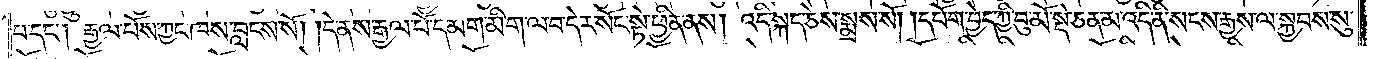པ་དང༌། རྒྱལ་པོས་ཀྱང་ཁས་བླངས་སོ། །དེ་ནས་རྒྱལ་པོ་དམག་མི་ག་ལ་བ་དེར་སོང་སྟེ་ཕྱིན་ནས། འདི་སྐད་ཅེས་སྨྲས་སོ། །དཔོག་བྱེད་ཀྱི་བུ་མོ་སྡེ་ཅན་མ་འདི་ནི་སངས་རྒྱས་ལ་སྐྱབས་སུ་
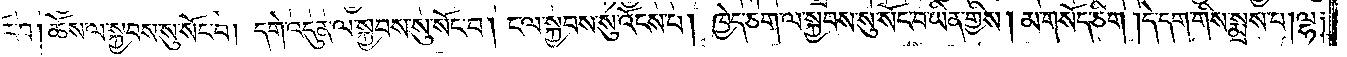སོང་བ། ཆོས་ལ་སྐྱབས་སུ་སོང་བ། དགེ་འདུན་ལ་སྐྱབས་སུ་སོང་བ། ང་ལ་སྐྱབས་སུ་འོངས་པ། ཁྱེད་ཅག་ལ་སྐྱབས་སུ་སོང་བ་ཡིན་གྱིས། མ་གསོད་ཅིག །དེ་དག་གིས་སྨྲས་པ། ལྷ༑
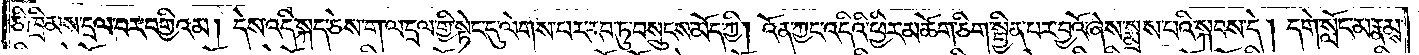ཅི་ཁྲིམས་དྲལ་བར་བགྱིའམ། དེས་འདི་སྐད་ཅེས་ག་ལ་དྲལ་གྱི་སྟེང་དུ་ལེགས་པར་རབ་ཏུ་བསྲུངས་མོད་ཀྱི། འོན་ཀྱང་འདིའི་ཕྱིར་མཆོག་ཅིག་སྦྱིན་པར་བྱའོ་ཞེས་སྨྲས་པའི་སྐབས་དེ། དགེ་སློང་མ་རྣམས་
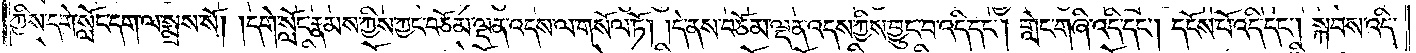ཀྱིས་དགེ་སློང་དག་ལ་སྨྲས་སོ། །དགེ་སློང་རྣམས་ཀྱིས་ཀྱང་བཅོམ་ལྡན་འདས་ལ་གསོལ་ཏོ། །དེ་ནས་བཅོམ་ལྡན་འདས་ཀྱིས་བྱུང་བ་འདི་དང༌། གླེང་གཞི་འདི་དང༌། དངོས་པོ་འདི་དང༌། སྐབས་འདི་
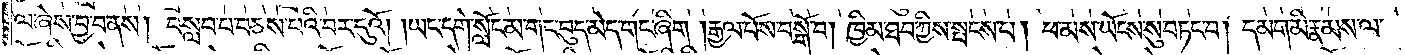ལ་ཞེས་བྱ་བ་ནས། བསླབ་པ་བཅས་པའི་བར་དུའོ། །ཡང་དགེ་སློང་མ་གང་བུད་མེད་གང་ཞིག །རྒྱལ་པོས་བསྒོ་བ། ཁྱིམ་ཐབ་ཀྱིས་སྤངས་པ། ཕ་མས་ཡོངས་སུ་བཏང་བ། དམག་མི་རྣམས་ལ་
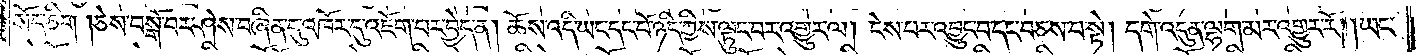སོད་ཅིག །ཅེས་བསྒོ་བར་ཤེས་བཞིན་དུ་འཁོར་དུ་འཇོག་པར་བྱེད་ན། ཆོས་འདི་ཡང་དང་པོ་ཉིད་ཀྱིས་ལྟུང་བར་འགྱུར་ལ། ངེས་པར་འབྱུང་བ་དང་བཅས་པ་སྟེ། དགེ་འདུན་ལྷག་མར་འགྱུར་རོ། །ཡང་
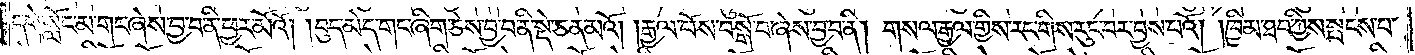དགེ་སློང་མ་གང་ཞེས་བྱ་བ་ནི་ཕྱར་མོའོ། །བུད་མེད་གང་ཞིག་ཅེས་བྱ་བ་ནི་སྡེ་ཅན་མའོ། །རྒྱལ་པོས་བསྒོ་བ་ཞེས་བྱ་བ་ནི། གསལ་རྒྱལ་གྱིས་རང་གིས་རུང་བར་བྱས་པའོ། །ཁྱིམ་ཐབ་ཀྱིས་སྤངས་པ་
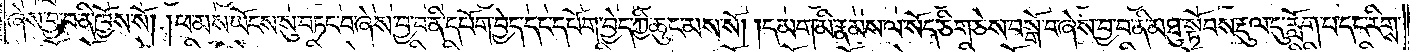ཞེས་བྱ་བ་ནི་ཁྱོས་སོ། །ཕ་མས་ཡོངས་སུ་བཏང་བ་ཞེས་བྱ་བ་ནི་དཔོག་བྱེད་དང་དཔོག་བྱེད་ཀྱི་ཆུང་མས་སོ། །དམག་མི་རྣམས་ལ་སོད་ཅིག་ཅེས་བསྒོ་བ་ཞེས་བྱ་བ་ནི་མཐུ་སྟོབས་རྡུལ་དུ་རློག་པ་དང་རིགས་
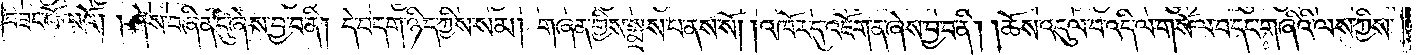བཟང་པོ་ལའོ། །ཤེས་བཞིན་དུ་ཞེས་བྱ་བ་ནི། དེ་བདག་ཉིད་ཀྱིས་སམ། གཞན་གྱིས་སྨྲས་པ་ནས་སོ། །འཁོར་དུ་འཇོག་ན་ཞེས་བྱ་བ་ནི། །ཆོས་འདུལ་བ་འདི་ལ་གསོལ་བ་དང་གཞིའི་ལས་ཀྱིས་
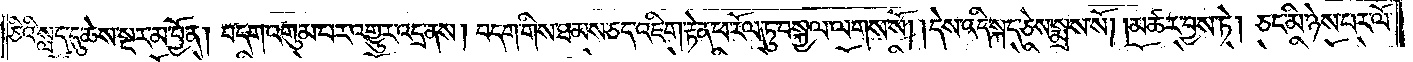ཅིའི་སླད་དུ་ཆེས་སྔར་མ་བྱོན། བདག་འགུམ་པར་འགྱུར་འདྲ་ནས། བདག་གིས་ཐམས་ཅད་འཇིག་རྟེན་ཕ་རོལ་ཏུ་བསྐྱལ་ལགས་སོ། །དེས་འདི་སྐད་ཅེས་སྨྲས་སོ། །མཚར་བྱས་ཏེ། ཅང་མི་ཉེས་པར་ལོ་
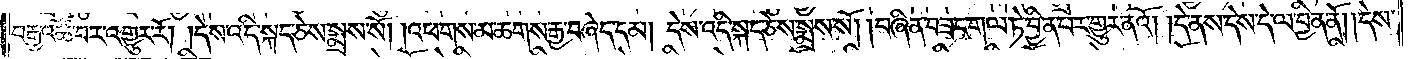བརྒྱ་འཚོ་བར་འགྱུར་རོ། །དེས་འདི་སྐད་ཅེས་སྨྲས་སོ། །འཕགས་མ་ཆགས་རྒྱ་བཞེད་དམ། དེས་འདི་སྐད་ཅེས་སྨྲས་སོ། །བཞིན་བཟང་གལ་ཏེ་བྱིན་པར་གྱུར་ནའོ། །དེ་ནས་དེས་དེ་ལ་བྱིན་ནོ། །དེས་
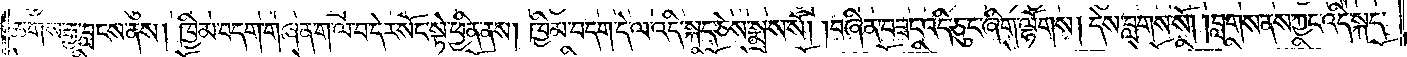ཆགས་རྒྱ་བླངས་ནས། ཁྱིམ་བདག་གཞན་ག་ལ་བ་དེར་སོང་སྟེ་ཕྱིན་ནས། ཁྱིམ་བདག་དེ་ལ་འདི་སྐད་ཅེས་སྨྲས་སོ། །བཞིན་བཟང་འདི་ཅུང་ཞིག་ལྷོགས། དེས་བླགས་སོ། །བླགས་ནས་ཀྱང་འདི་སྐད་
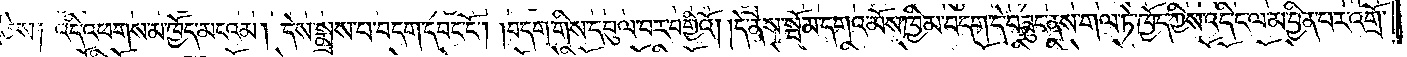ཅེས༑ འདི་འཕགས་མ་ཁྱོད་མངའམ། དེས་སྨྲས་པ་བདག་དབང་ངོ༌། །བདག་གིས་དབུལ་བར་བགྱིའོ། །དེ་ནས་སྦོམ་དགའ་མོས་ཁྱིམ་བདག་དེ་བཟུང་ནས་གལ་ཏེ་ཁྱོད་ཀྱིས་འདི་ང་ལ་མ་བྱིན་པར་འགྲོ་
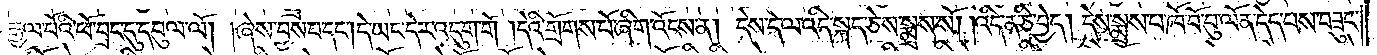ན༑ རྒྱལ་པོའི་ཕོ་བྲང་དུ་དབུལ་ལོ། །ཞེས་བྱས་པ་དང༌། དེ་ཡང་དེར་འདུག་གོ །དེའི་གྲོགས་པོ་ཞིག་འོངས་ན། དེས་དེ་ལ་འདི་སྐད་ཅེས་སྨྲས་སོ། །འདི་ན་ཅི་བྱེད། དེས་སྨྲས་པ་ཁོ་བོ་བུ་ལོན་དེད་པས་བཟུང་
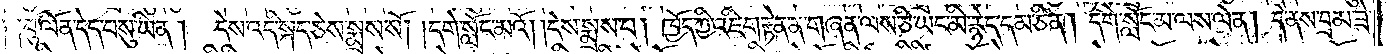ངོ༑ ༑བུ་ལོན་དེད་པ་སུ་ཡིན། དེས་འདི་སྐད་ཅེས་སྨྲས་སོ། །དགེ་སློང་མའོ། །དེས་སྨྲས་པ། ཁྱོད་ཀྱི་འཇིག་རྟེན་ན་གཞན་ལས་ཅི་ཡང་མི་རྙེད་དམ་ཅི་ན། དགེ་སློང་མ་ལས་ལེན། དེ་ནས་བྲམ་ཟེ་
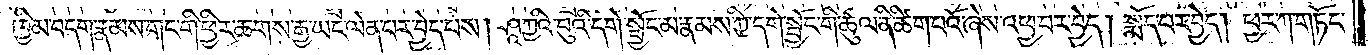དང་༑ ཁྱིམ་བདག་རྣམས་གང་གི་ཕྱིར་ཆགས་རྒྱ་ཡང་ལེན་པར་བྱེད་པས། ཤཱཀྱའི་བུའི་དགེ་སྦྱོང་མ་རྣམས་ཀྱི་དགེ་སྦྱོང་གི་ཚུལ་ནི་ཚིག་པའོ་ཞེས་འཕྱ་བར་བྱེད། སྨོད་པར་བྱེད། ཕྱར་ཀ་གཏོང་
